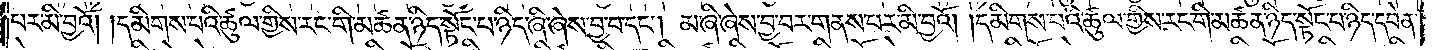པར་མི་བྱའོ། །དམིགས་པའི་ཚུལ་གྱིས་རང་གི་མཚན་ཉིད་སྟོང་པ་ཉིད་ཞི་ཞེས་བྱ་བ་དང༌། མ་ཞི་ཞེས་བྱ་བར་གནས་པར་མི་བྱའོ། །དམིགས་པའི་ཚུལ་གྱིས་རང་གི་མཚན་ཉིད་སྟོང་པ་ཉིད་དབེན་
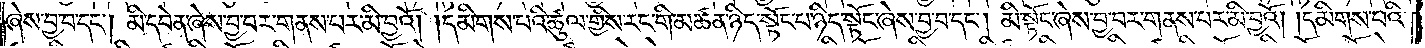ཞེས་བྱ་བ་དང༌། མི་དབེན་ཞེས་བྱ་བར་གནས་པར་མི་བྱའོ། །དམིགས་པའི་ཚུལ་གྱིས་རང་གི་མཚན་ཉིད་སྟོང་པ་ཉིད་སྟོང་ཞེས་བྱ་བ་དང༌། མི་སྟོང་ཞེས་བྱ་བར་གནས་པར་མི་བྱའོ། །དམིགས་པའི་
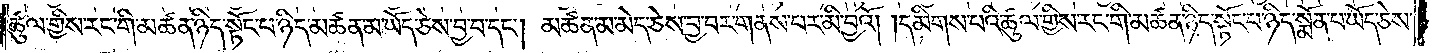ཚུལ་གྱིས། རང་གི་མཚན་ཉིད་སྟོང་པ་ཉིད་མཚན་མ་ཡོད་ཅེས་བྱ་བ་དང༌། མཚན་མ་མེད་ཅེས་བྱ་བར་གནས་པར་མི་བྱའོ། །དམིགས་པའི་ཚུལ་གྱིས་རང་གི་མཚན་ཉིད་སྟོང་པ་ཉིད་སྨོན་པ་ཡོད་ཅེས་
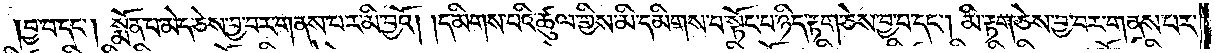བྱ་བ་དང༌། སྨོན་པ་མེད་ཅེས་བྱ་བར་གནས་པར་མི་བྱའོ། །དམིགས་པའི་ཚུལ་གྱིས་མི་དམིགས་པ་སྟོང་པ་ཉིད་རྟག་ཅེས་བྱ་བ་དང༌། མི་རྟག་ཅེས་བྱ་བར་གནས་པར་
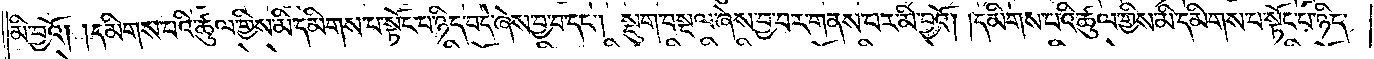མི་བྱའོ། །དམིགས་པའི་ཚུལ་གྱིས་མི་དམིགས་པ་སྟོང་པ་ཉིད་བདེ་ཞེས་བྱ་བ་དང༌། སྡུག་བསྔལ་ཞེས་བྱ་བར་གནས་པར་མི་བྱའོ། །དམིགས་པའི་ཚུལ་གྱིས་མི་དམིགས་པ་སྟོང་པ་ཉིད་
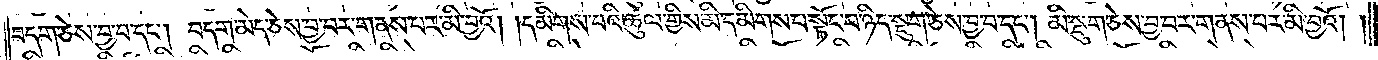བདག་ཅེས་བྱ་བ་དང༌། བདག་མེད་ཅེས་བྱ་བར་གནས་པར་མི་བྱའོ། །དམིགས་པའི་ཚུལ་གྱིས་མི་དམིགས་པ་སྟོང་པ་ཉིད་སྡུག་ཅེས་བྱ་བ་དང༌། མི་སྡུག་ཅེས་བྱ་བར་གནས་པར་མི་བྱའོ། །
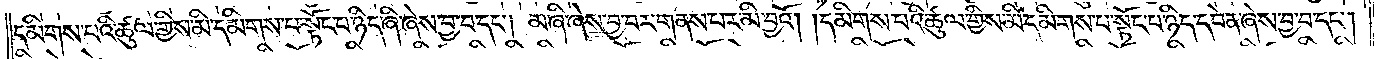དམིགས་པའི་ཚུལ་གྱིས་མི་དམིགས་པ་སྟོང་པ་ཉིད་ཞི་ཞེས་བྱ་བ་དང༌། མ་ཞི་ཞེས་བྱ་བར་གནས་པར་མི་བྱའོ། །དམིགས་པའི་ཚུལ་གྱིས་མི་དམིགས་པ་སྟོང་པ་ཉིད་དབེན་ཞེས་བྱ་བ་དང༌།
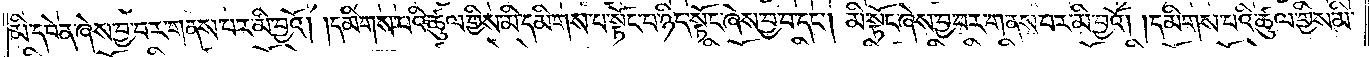མི་དབེན་ཞེས་བྱ་བར་གནས་པར་མི་བྱའོ། །དམིགས་པའི་ཚུལ་གྱིས་མི་དམིགས་པ་སྟོང་པ་ཉིད་སྟོང་ཞེས་བྱ་བ་དང༌། མི་སྟོང་ཞེས་བྱ་བར་གནས་པར་མི་བྱའོ། །དམིགས་པའི་ཚུལ་གྱིས་མི་
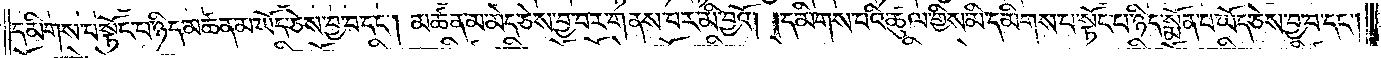དམིགས་པ་སྟོང་པ་ཉིད་མཚན་མ་ཡོད་ཅེས་བྱ་བ་དང༌། མཚན་མ་མེད་ཅེས་བྱ་བར་གནས་པར་མི་བྱའོ། །དམིགས་པའི་ཚུལ་གྱིས་མི་དམིགས་པ་སྟོང་པ་ཉིད་སྨོན་པ་ཡོད་ཅེས་བྱ་བ་དང༌།
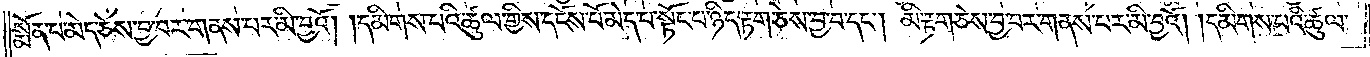སྨོན་པ་མེད་ཅེས་བྱ་བར་གནས་པར་མི་བྱའོ། །དམིགས་པའི་ཚུལ་གྱིས་དངོས་པོ་མེད་པ་སྟོང་པ་ཉིད་རྟག་ཅེས་བྱ་བ་དང༌། མི་རྟག་ཅེས་བྱ་བར་གནས་པར་མི་བྱའོ། །དམིགས་པའི་ཚུལ་
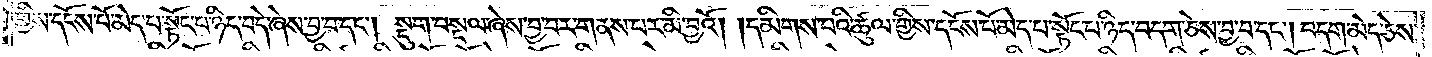གྱིས་དངོས་པོ་མེད་པ་སྟོང་པ་ཉིད་བདེ་ཞེས་བྱ་བ་དང༌། སྡུག་བསྔལ་ཞེས་བྱ་བར་གནས་པར་མི་བྱའོ། །དམིགས་པའི་ཚུལ་གྱིས་དངོས་པོ་མེད་པ་སྟོང་པ་ཉིད་བདག་ཅེས་བྱ་བ་དང༌། བདག་མེད་ཅེས་
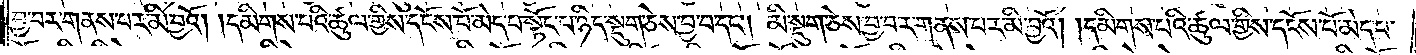བྱ་བར་གནས་པར་མི་བྱའོ། །དམིགས་པའི་ཚུལ་གྱིས་དངོས་པོ་མེད་པ་སྟོང་པ་ཉིད་སྡུག་ཅེས་བྱ་བ་དང༌། མི་སྡུག་ཅེས་བྱ་བར་གནས་པར་མི་བྱའོ། །དམིགས་པའི་ཚུལ་གྱིས་དངོས་པོ་མེད་པ་
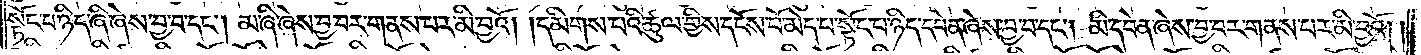སྟོང་པ་ཉིད་ཞི་ཞེས་བྱ་བ་དང༌། མ་ཞི་ཞེས་བྱ་བར་གནས་པར་མི་བྱའོ། །དམིགས་པའི་ཚུལ་གྱིས་དངོས་པོ་མེད་པ་སྟོང་པ་ཉིད་དབེན་ཞེས་བྱ་བ་དང༌། མི་དབེན་ཞེས་བྱ་བར་གནས་པར་མི་བྱའོ། །
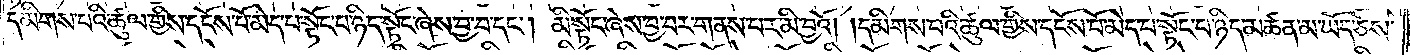དམིགས་པའི་ཚུལ་གྱིས་དངོས་པོ་མེད་པ་སྟོང་པ་ཉིད་སྟོང་ཞེས་བྱ་བ་དང༌། མི་སྟོང་ཞེས་བྱ་བར་གནས་པར་མི་བྱའོ། །དམིགས་པའི་ཚུལ་གྱིས་དངོས་པོ་མེད་པ་སྟོང་པ་ཉིད་མཚན་མ་ཡོད་ཅེས་
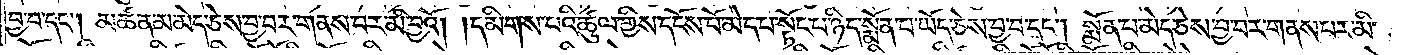བྱ་བ་དང༌། མཚན་མ་མེད་ཅེས་བྱ་བར་གནས་པར་མི་བྱའོ། །དམིགས་པའི་ཚུལ་གྱིས་དངོས་པོ་མེད་པ་སྟོང་པ་ཉིད་སྨོན་པ་ཡོད་ཅེས་བྱ་བ་དང༌། སྨོན་པ་མེད་ཅེས་བྱ་བར་གནས་པར་མི་
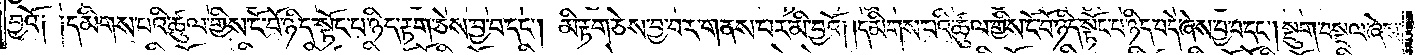བྱའོ༏ ༏དམིགས་པའི་ཚུལ་གྱིས་ངོ་བོ་ཉིད་སྟོང་པ་ཉིད་རྟག་ཅེས་བྱ་བ་དང༌། མི་རྟག་ཅེས་བྱ་བར་གནས་པར་མི་བྱའོ། །དམིགས་པའི་ཚུལ་གྱིས་ངོ་བོ་ཉིད་སྟོང་པ་ཉིད་བདེ་ཞེས་བྱ་བ་དང༌། སྡུག་བསྔལ་ཞེས་
